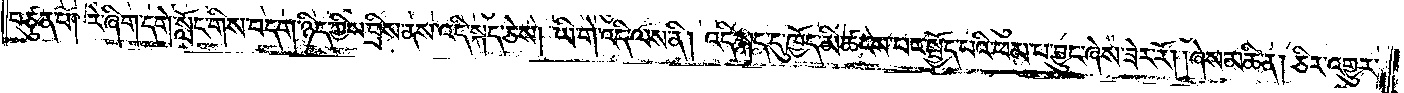བཙུན་པ། རེ་ཞིག་དགེ་སློང་གིས་བདག་ཉིད་ཀྱིས་བྲིས་ནས་འདི་སྐད་ཅེས། ཡི་གེ་འདི་ལས་ནི། འདི་སྐད་དུ་ཁྱོད་མི་ཚངས་པར་སྤྱོད་པའི་ཕམ་པ་བྱུང་ཞེས་ཟེར་རོ། །ཞེས་མཆི་ན། ཅིར་འགྱུར་
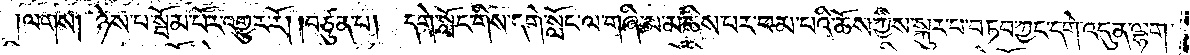།ལགས། ཉེས་པ་སྦོམ་པོར་འགྱུར་རོ། །བཙུན་པ། དགེ་སློང་གིས་དགེ་སློང་ལ་གཞི་མ་མཆིས་པར་ཕམ་པའི་ཆོས་ཀྱིས་སྐུར་པ་བཏབ་ཀྱང་དགེ་འདུན་ལྷག་
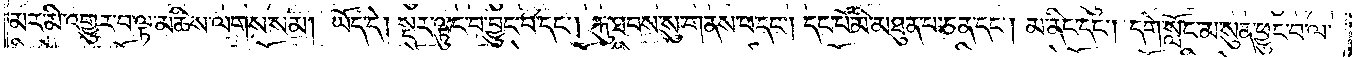མར་མི་འགྱུར་བ་ལྟ་མཆིས་ལགས་སམ། ཡོད་དེ། སྔར་ལྟུང་བ་བྱུང་བ་དང༌། རྐུ་ཐབས་སུ་གནས་པ་དང༌། དང་པོ་མི་མཐུན་པ་ཅན་དང༌། མ་ནིང་དང༌། དགེ་སློང་མ་སུན་ཕྱུང་བ་ལ་
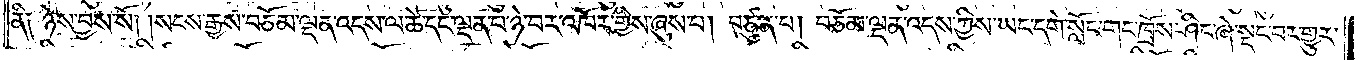ནི༑ ཉེས་བྱས་སོ། །སངས་རྒྱས་བཅོམ་ལྡན་འདས་ལ་ཚེ་དང་ལྡན་པ་ཉེ་བར་འཁོར་གྱིས་ཞུས་པ། བཙུན་པ། བཅོམ་ལྡན་འདས་ཀྱིས་ཡང་དགེ་སློང་གང་ཁྲོས་ཤིང་ཞེ་སྡང་བར་གྱུར་
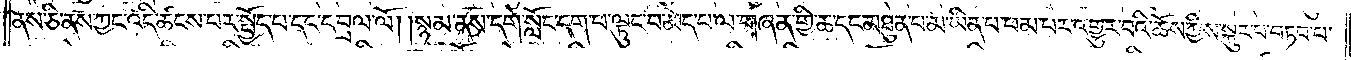ནས་ཅི་ནས་ཀྱང་འདི་ཚངས་པར་སྤྱོད་པ་དང་དབྲལ་ལོ། །སྙམ་ནས་དགེ་སློང་དག་པ་ལྟུང་བ་མེད་པ་ལ་གཞན་གྱི་ཆ་དང་མཐུན་པ་མ་ཡིན་པ་ཕམ་པར་འགྱུར་བའི་ཆོས་ཀྱི་སྐུར་པ་བཏབ་པ་
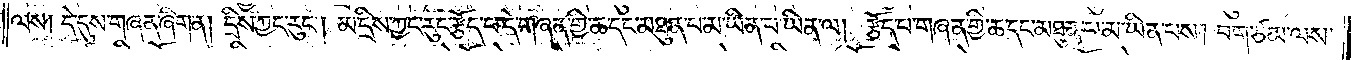ལས། དེ་དུས་གཞན་ཞིག་ན། དྲིས་ཀྱང་རུང༌། མ་དྲིས་ཀྱང་རུང་རྩོད་པ་དེ་གཞན་གྱི་ཆ་དང་མཐུན་པ་མ་ཡིན་པ་ཡིན་ལ། རྩོད་པ་གཞན་གྱི་ཆ་དང་མཐུན་པ་མ་ཡིན་པས། བག་ཙམ་ལས་
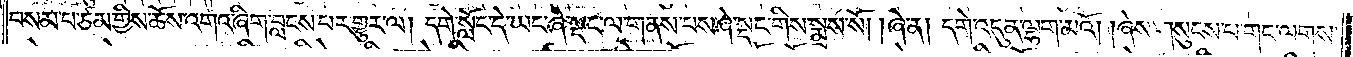བསམ་པ་ཙམ་གྱིས་ཆོས་འགའ་ཞིག་བླངས་པར་གྱུར་ལ། དགེ་སློང་དེ་ཡང་ཞེ་སྡང་ལ་གནས་པས་ཞེ་སྡང་གིས་སྨྲས་སོ། །ཞེ་ན། དགེ་འདུན་ལྷག་མའོ། །ཞེས་གསུངས་པ་གང་ལགས་
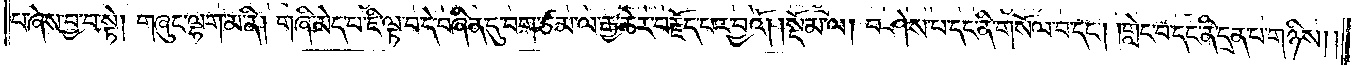པ་ཞེས་བྱ་བ་སྟེ། གཞུང་ལྷག་མ་ནི། གཞི་མེད་པ་ཇི་ལྟ་བ་དེ་བཞིན་དུ་བག་ཙམ་ལ་རྒྱ་ཆེར་བརྗོད་པར་བྱའོ།    །སྡོམ་ལ། བཤེས་པ་དང་ནི་གསོལ་བ་དང༌། །གླེང་བ་དང་ནི་དྲན་པ་གཉིས། །
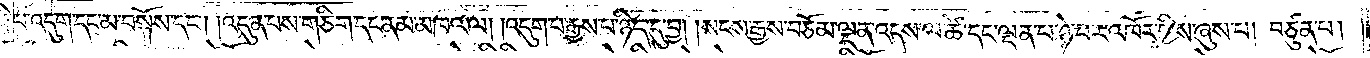བཞི་པ་འདུག་དང་མ་བསྐོས་དང༌། །འདུན་པས་གཅིག་དང་ནམ་མཁའ་ལ། །འདུག་པ་རྒྱས་པ་ཉིད་དུ་བྱ། །སངས་རྒྱས་བཅོམ་ལྡན་འདས་ལ་ཚེ་དང་ལྡན་པ་ཉེ་བར་འཁོར་གྱིས་ཞུས་པ། བཙུན་པ།
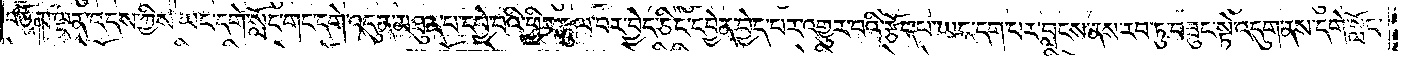བཅོམ་ལྡན་འདས་ཀྱིས་ཡང་དགེ་སློང་གང་དགེ་འདུན་མཐུན་པ་དབྱེ་བའི་ཕྱིར་རྟུལ་བར་བྱེད་ཅིང་དབྱེན་བྱེད་པར་འགྱུར་བའི་རྩོད་པ་ཡང་དག་པར་བླངས་ནས་རབ་ཏུ་བཟུང་སྟེ་འདུག་ནས་དགེ་སློང་
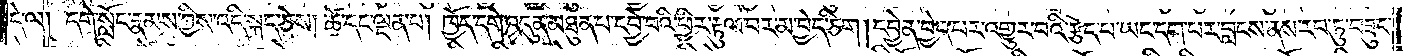དེ་ལ། དགེ་སློང་རྣམས་ཀྱིས་འདི་སྐད་ཅེས། ཚེ་དང་ལྡན་པ། ཁྱོད་དགེ་འདུན་མཐུན་པ་དབྱེ་བའི་ཕྱིར་རྟུལ་བར་མ་བྱེད་ཅིག །དབྱེན་བྱེད་པར་འགྱུར་བའི་རྩོད་པ་ཡང་དག་པར་བླངས་ནས་རབ་ཏུ་བཟུང་
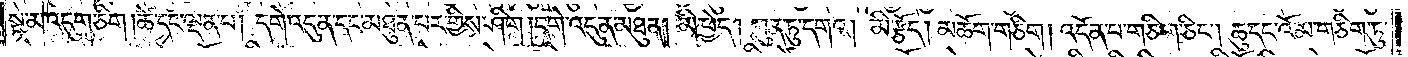སྟེ་མ་འདུག་ཅིག །ཚེ་དང་ལྡན་པ། དགེ་འདུན་དང་མཐུན་པར་གྱིས་ཤིག །དགེ་འདུན་མཐུན། མི་ཕྱེད། ཀུན་ཏུ་དགའ། མི་རྩོད། མཆོག་གཅིག། འདོན་པ་གཅིག་ཅིང༌། ཆུ་དང་འོ་མ་གཅིག་ཏུ་
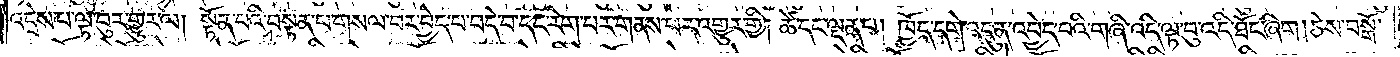འདྲེས་པ་ལྟ་བུར་གྱུར་ལ། སྟོན་པའི་བསྟན་པ་གསལ་བར་བྱེད་པ་བདེ་བ་དང་རེག་པར་གནས་པར་འགྱུར་གྱི། ཚེ་དང་ལྡན་པ། ཁྱོད་དགེ་འདུན་འབྱེད་པའི་གཞི་འདི་ལྟ་བུ་འདི་ཐོང་ཞིག ། ཅེས་བསྒོ་
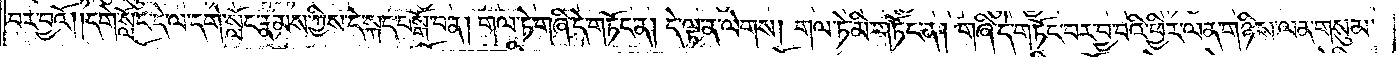བར་བྱའོ། །དགེ་སློང་དེ་ལ་དགེ་སློང་རྣམས་ཀྱིས་དེ་སྐད་བསྒོ་བ་ན། གལ་ཏེ་གཞི་དེ་གཏོང་ན། དེ་ལྟ་ན་ལེགས། གལ་ཏེ་མི་གཏོང་ན། གཞི་དེ་གཏོང་བར་བྱ་བའི་ཕྱིར་ལན་གཉིས་ལན་གསུམ་
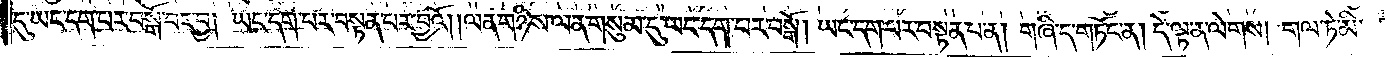དུ་ཡང་དག་པར་བསྒོ་བར་བྱ། ཡང་དག་པར་བསྟན་པར་བྱའོ། །ལན་གཉིས་ལན་གསུམ་དུ་ཡང་དག་པར་བསྒོ། ཡང་དག་པར་བསྟན་པ་ན། གཞི་དེ་གཏོང་ན། དེ་ལྟ་ན་ལེགས། གལ་ཏེ་མི་
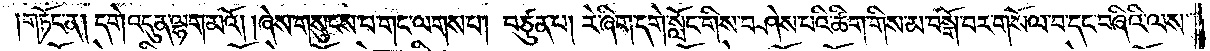།གཏོང་ན། དགེ་འདུན་ལྷག་མའོ། །ཞེས་གསུངས་པ་གང་ལགས་པ། བཙུན་པ། རེ་ཞིག་དགེ་སློང་གིས་བཤེས་པའི་ཚིག་གིས་མ་བསྒོ་བར་གསོལ་པ་དང་བཞིའི་ལས་
